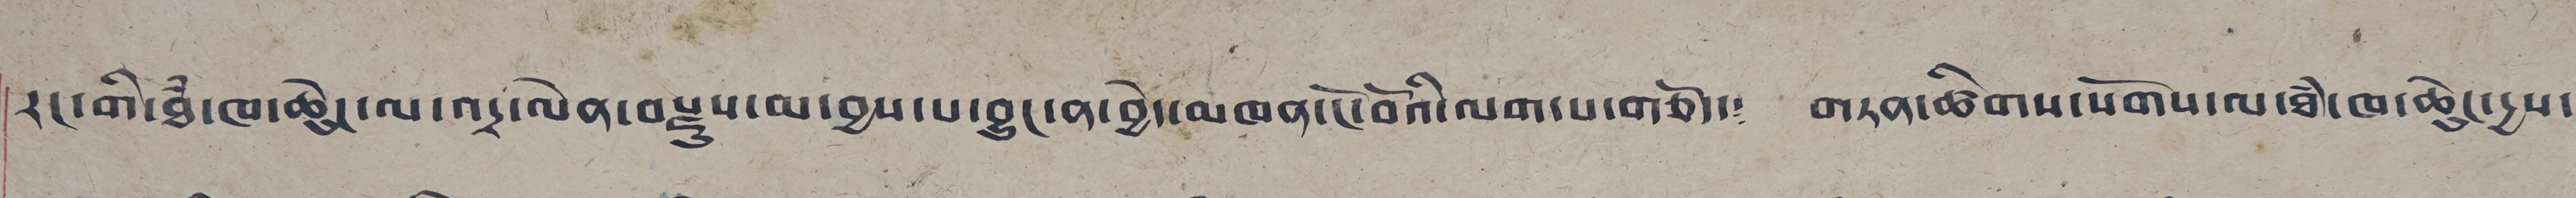རང་གི་ཐཾ་ཁ་ཆེུང་ལ་འདྲ་ལེན་བརྫུས་མ་བྱས་པ་བྱུང་ན་བྱེད་མཁན་ངོ་བོའི་ལག་པ་གཅོད་༴ གཏན་ཚིགས་སོགས་ལ་ཐཾ་ཁ་ཆེུང་དྱས་
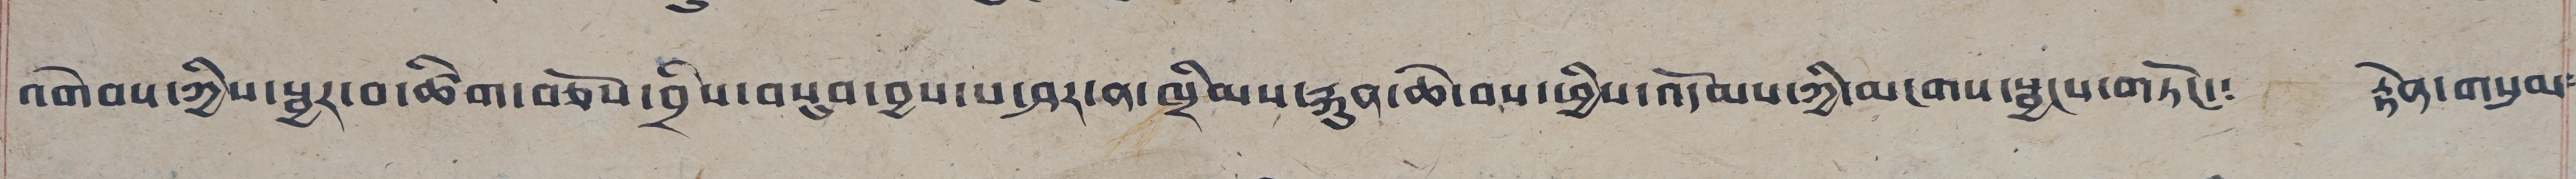འགེབས་ཀྱིས་སྦྱར་བ་ཚིག་བཅོས་བྲིས་བསུབ་བྱས་པ་ཤར་ན་ཁྲིམས་རྐུན་ཆེ་བས་ཕྱིས་འདོམས་ཀྱི་མངགས་སྦྱངས་གཏོང་༴ རྟེན་གསུམ༴
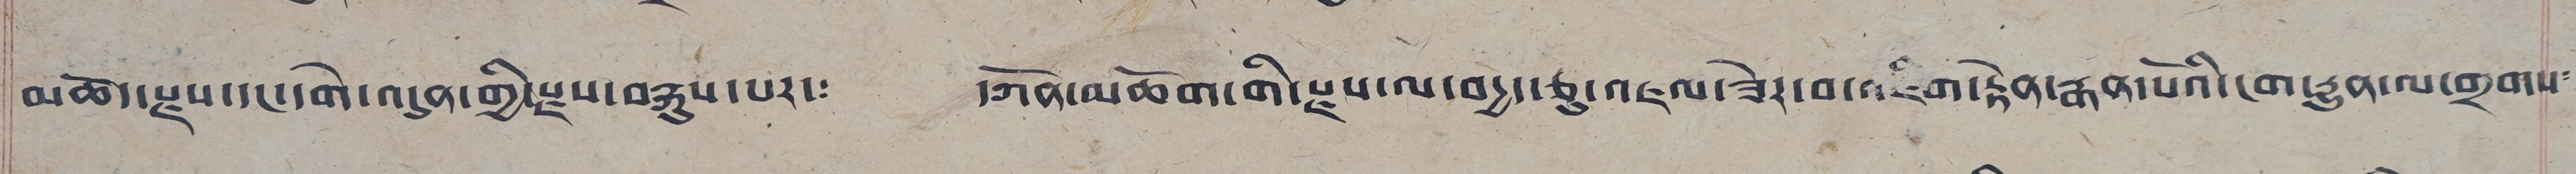མཆོད་རྫས་དང་དགེ་འདུན་གྱི་རྫས་བརྐུས་པར་༴ དཀོན་མཆོག་གི་རྫས་ལེ་བདྱད་ཅུ་འཇལ་ཟེར་བ་འཇིག་རྟེན་རྒན་པོའི་ངག་རྒྱུན་ལ་གྲགས༴
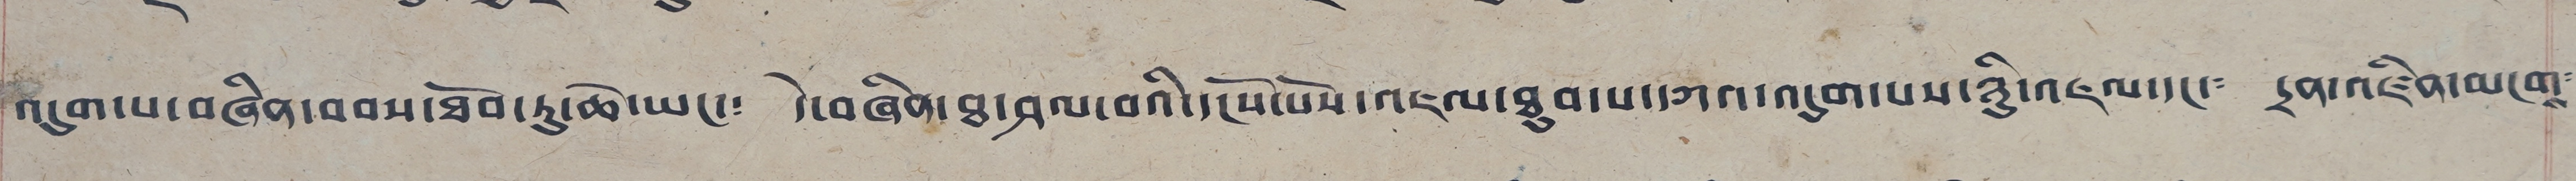འདུག་པ་བཞིན་བབས་ཐོབ་ཏུ་ཆེ་ཡང་༴ དེ་བཞིན་བྱ་ཤལ་བའི་དངོས་པོས་འཇལ་ཐུབ་པ་དཀའ་འདུག་པས་ཉིུ་འཇལ་དང་༴ དྲན་འཛིན་མངགས་
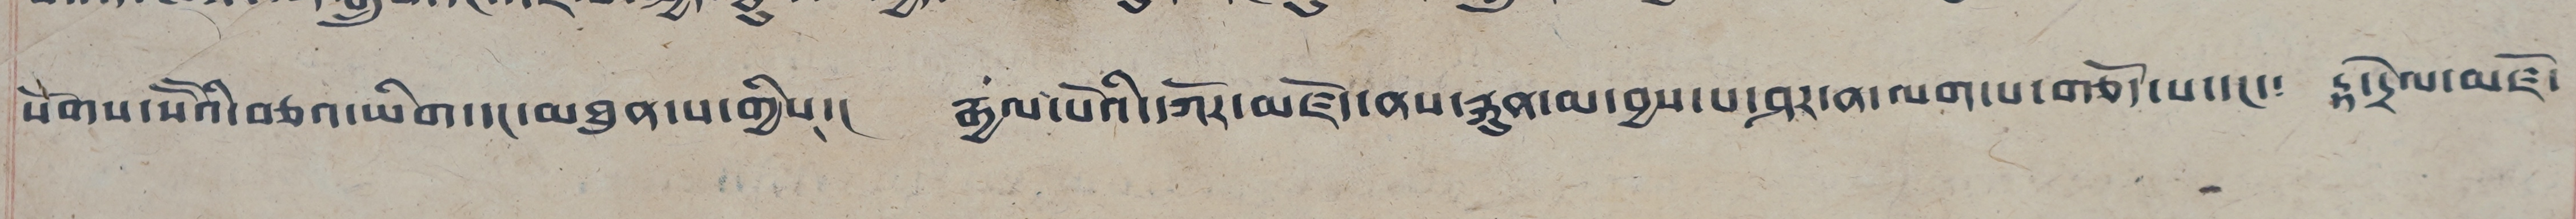སོགས་སོ་སོའི་བཅའ་ཡིག་དང་མཐུན་པ་གྱིས།། རྒྱལ་པོའི་དཀོར་མཛོད་ནས་རྐུན་མ་བྱས་པ་ཤར་ན་ལག་པ་གཅོད་པ་དང་༴ རྟ་དྲེལ་མཛོ་
